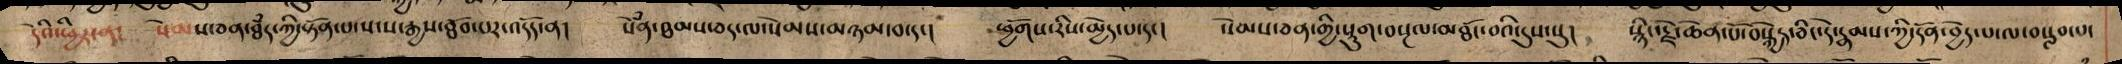དེའི་ཕྱིར་ན༴ སེམས་ཅན་ཐཾད་ཀྱི་སྟོན་པ་སངས་རྒྱས་ཐོབ་པར་འདོད་ན། སེཾན་ཐམས་ཅད་ལ་སེམས་མཉམ་བ་དང། ཕྱོགས་རིས་མྱེད་པ་དང། སེམས་ཅན་གྱི་སྡུག་བསྔལ་མཐོ་བའི་དུས་སུ། སྙིང་རྗེ་ཆེན་པོ་བསྐྱེད་ཅིང་དེ་རྣམས་ཀྱི་དོན་བྱེད་པ་ལ་བསླབ་པ་
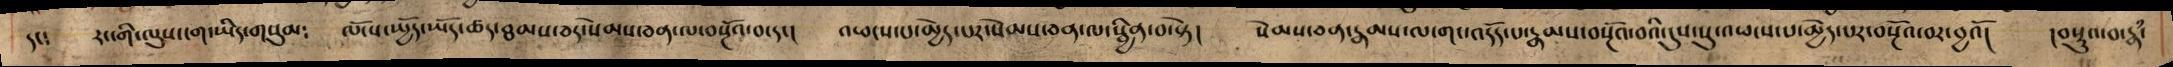དང༴ རང་གི་ལུས་ངག་ཡིད་གསུམ༴ ལོངས་སྤྱོད་ཡོད་ཚད་ཐམས་ཅད་སེམས་ཅན་ལ་བསྔོའ་བ་དང། འཕངས་པ་མྱེད་པར་སེམས་ཅན་ལ་སྦྱིན་བ་སྟེ། སེམས་ཅན་རྣམས་ལ་གང་འདོད་པ་རྣམས་བསྔོའ་བའི་དུས་སུ་འཕངས་པ་མྱེད་པར་བསྔོའ་བར་བྱའོ། །བསྡུའ་བ་རྣཾ་
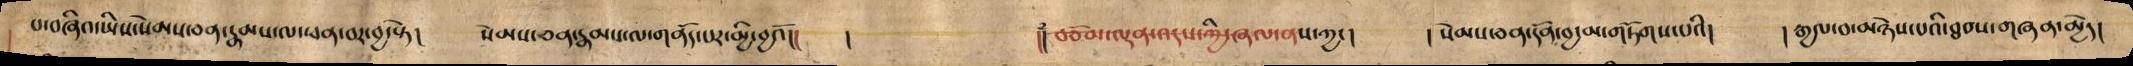པ་བཞིའ་ཡིས་སེམས་ཅན་རྣམས་ལ་ཕན་བར་བྱ་སྟེ། སེམས་ཅན་རྣམས་ལ་གནོད་པར་མྱི་བྱའོ། །། བཅོམ་ལྡན་འདས་ཀྱི་ཞལ་ནས་ཀྱང། །སེམས་ཅན་དོན་བྱ་མ་གཏོགས་པའི། །རྒྱལ་བ་མཉེས་པའི་ཐབས་གཞན་མྱེད།
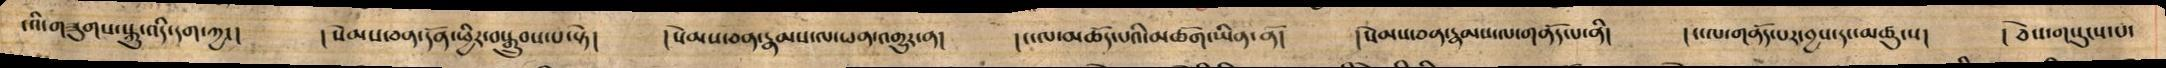ངའི་གཟུགས་སྐུ་འདི་དག་ཀྱང། །སེམས་ཅན་དོན་ཕྱིར་བསྒྲུབས་པ་སྟེ། །སེམས་ཅན་རྣམས་ལ་ཕན་འགྱུར་ན། །ང་ལ་མཆོད་པའི་མཆོག་ཡིན་ནོ། །སེམས་ཅན་རྣམས་ལ་གནོད་པ་ནི། །ང་ལ་གནོད་པར་བྱས་དང་མཚུངས། ། ཅེས་གསུངས་པ་
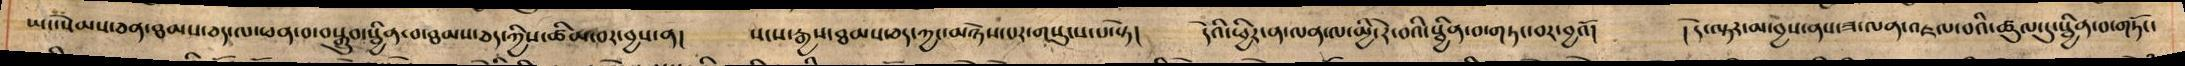ཡང་སེམས་ཅན་ཐམས་ཅད་ལ་ཕན་བ་བསྒྲུབ་སྦྱིན་བ་ཐམས་ཅད་ཀྱིས་ཚིམ་བར་བྱས་ན། སངས་རྒྱས་ཐམས་ཅད་མཉེས་པར་གསུངས་པ་སྟེ། དེའི་ཕྱིར་ན་ལན་ལ་མྱི་རེ་བའི་སྦྱིན་བ་གཏང་བར་བྱའོ། ། དེ་ལྟར་མ་བྱས་ནས་ཟ་ལན་འཇལ་བའི་ཚུལ་དུ་སྦྱིན་བ་གཏོང་
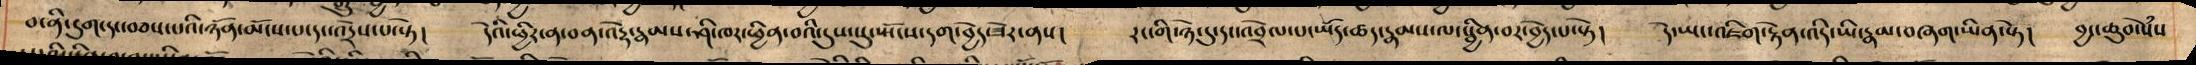བ་ནི་དུག་དང་བཅས་པའི་ཉོན་མོངས་པ་དང་འདྲེས་པ་སྟེ། དེའི་ཕྱིར་ན་བན་འརྡེ་རྣམས་ཤི་ཁར་ཕྱིན་བའི་དུས་སུ་ཡོངས་དག་བྱེད་ཟེར་ནས། རང་གི་ཉེ་དུ་དང་འབྲེལ་པ་ཡོད་ཚད་རྣམས་ལ་སྦྱིན་བར་བྱེད་པ་སྟེ། དེ་ཡང་འཇིག་རྟེན་འདི་ཡི་རྣམ་བཞག་ཡིན་སྟེ། བྱང་ཆུབ་སེཾས
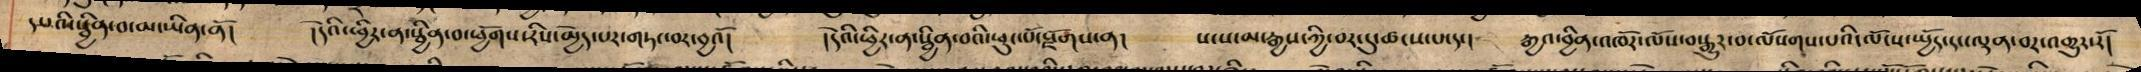དཔའི་སྦྱིན་བ་མ་ཡིན་ནོ། །དེའི་ཕྱིར་ན་སྦྱིན་བ་ཕྱོགས་རིས་མྱེད་པར་གཏང་བར་བྱའོ། །དེའི་ཕྱིར་ན་སྦྱིན་བའི་ཕུང་པོ་སྫོགས་ན། སངས་མ་རྒྱས་ཀྱི་བར་དུ་ཚངས་པ་དང། རྒྱའ་བྱིན་འཁོར་ལོས་བསྒྱུར་བ་ལསོགས་པའི་ལོངས་སྤྱོད་དང་ལྡན་བར་འགྱུར་རོ།
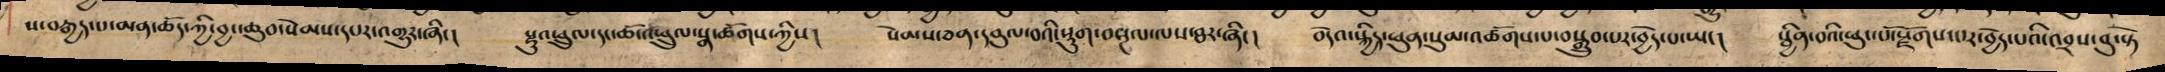ས་བརྒྱད་པ་མན་ཆོད་ཀྱི་བྱང་ཆུབ་སེམས་དཔར་འགྱུར་ཞིང། སྫུ་འཕྲུལ་དང་ཆོ་འཕྲུལ་སྣ་ཚོགས་ཀྱིས། སེམས་ཅན་དབུལ་བའི་སྡུག་བསྔལ་ལས་ཐར་ཞིང། བདེའ་སྐྱིད་ཕུན་སུམ་འཚོགས་པ་བསྒྲུབ་པར་བྱེད་པ་ཡང། སྦྱིན་བའི་ཕུང་པོ་སྫོགས་པར་བྱེད་པའི་འབྲས་བུ་སྟེ
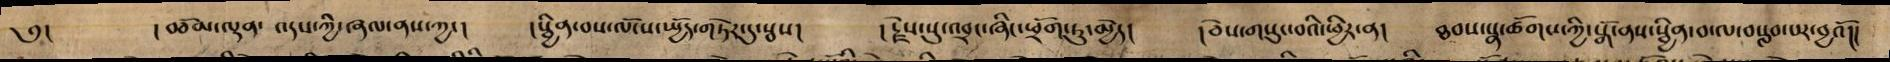༅། །བཅོམ་ལྡན་ འདས་ཀྱི་ཞལ་ནས་ཀྱང། །སྦྱིན་བས་ལོངས་སྤྱོད་གཏེར་དུ་སྦས། །རྗེས་སུ་འབྲང་ཞིང་ཕྲོག་ཏུ་མྱེད། །ཅེས་གསུང་བའི་ཕྱིར་ན། ཐབས་སྣ་ཚོགས་ཀྱི་སྒོ་ནས་སྦྱིན་བ་ལ་བསླབ་པར་བྱའོ།།
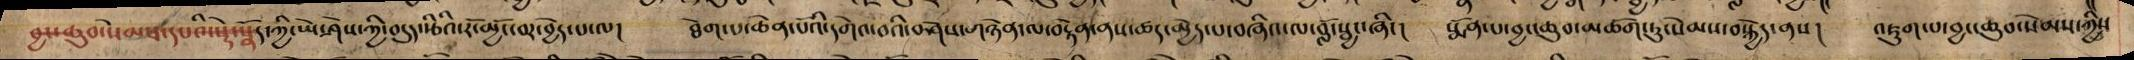བྱང་ཆུབ་སེམས་དཔའི་སྡེ་སྣོད་ཀྱི་ཡེ་ཤེས་ཀྱི་བདུད་རྩིའི་རོ་མྱོང་བར་བྱེད་པ་ལ། ཐེག་པ་ཆེན་པོའི་དགེའ་བའི་བཤེས་གཉེན་ལ་བརྟེན་ནས་ཚད་མྱེད་པ་བཞིའ་ལ་བློ་སྦཡང་ཞིང། སྨོན་པ་བྱང་ཆུབ་མཆོག་ཏུ་སེམས་བསྐྱེད་ནས། འཇུག་པ་བྱང་ཆུབ་སེམས་ཀྱིས
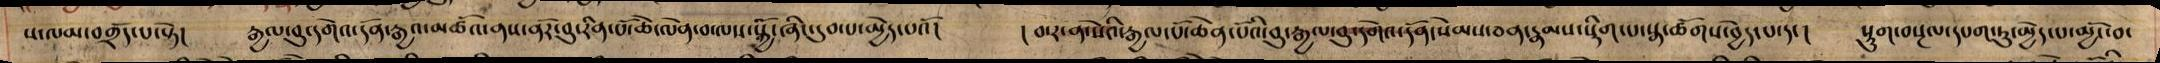ས་ལམ་བགྲོད་པ་སྟེ། རྒྱལ་བུ་དགེའ་དོན་རྒྱའ་མཚོའ་ནས་ནོར་བུ་རིན་པོ་ཆེ་ལེན་བ་ལས་སྐྱོ་ཞཱིང་དུབ་པ་མྱེད་པའོ། ། བ་ར་ན་སེའི་རྒྱལ་པོ་ཆེན་པོའི་བུ་རྒྱལ་བུ་དགེའ་དོན་སེམས་ཅན་རྣམས་སྡིག་པ་སྣ་ཚོགས་བྱེད་པ་དང། སྡུག་བསྔལ་དཔག་ཏུ་མྱེད་པ་མྱོང་བ་
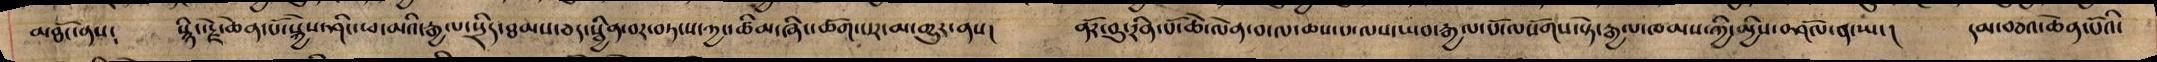མཐོང་ནས༴ སྙིང་རྗེ་ཆེན་པོ་སྐྱེས་ཤིང་ཕ་མའི་རྒྱལ་སྲིད་ཐམས་ཅད་སྦྱིན་བར་བཏངས་ཀྱང་ཚིམ་ཞིང་ཚོག་པར་མ་གྱུར་ནས། ནོར་བུ་རིན་པོ་ཆེ་ལེན་བ་ལ་ཆས་པ་ལས་ཡབ་རྒྱལ་པོ་ལསོགས་སྟེ་རྒྱལ་ཁམས་ཀྱི་མྱིས་བཤོལ་ན་ཡང། དམ་བཅའ་ཆེན་པོའི་
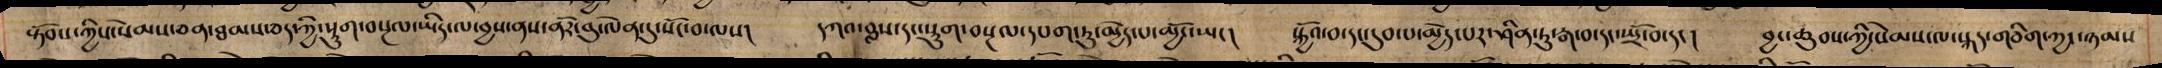སྟོབས་ཀྱིས་སེམས་ཅན་ཐམས་ཅད་ཀྱི་སྡུག་བསྔལ་ཡིད་ལ་བྱས་ནས་ནོར་བུ་ལེན་དུ་སོང་བ་ལས། དཀའ་བླས་དང་སྡག་བསྔལ་དཔག་ཏུ་མྱེད་པ་མྱོང་ཡང། སྐྱོའ་བ་དང་དུབ་པ་མྱེད་པར་ཤིན་ཏུ་རྒ་བ་དང་སྤྲོ་བ་དང། བྱང་ཆུབ་ཀྱི་སེམས་ལ་སྐད་གཅིག་ཀྱང་ཉམས
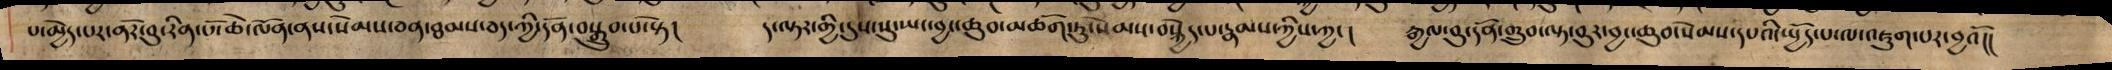པ་མྱེད་པར་ནོར་བུ་རིན་པོ་ཆེན་ལོན་ནས་སེམས་ཅན་ཐམས་ཅད་ཀྱི་དོན་བསྒྲུབ་པ་སྟེ། ད་ལྟར་གྱི་དུས་སུ་ཡང་བྱང་ཆུབ་ཏུ་སེམས་བསྐྱེད་པ་རྣམས་ཀྱིས་ཀྱང། རྒྱལ་བུ་དོན་གྲུབ་ལྟ་བུར་བྱང་ཆུབ་སེམས་དཔའི་སྤྱོད་པ་ལ་འཇུག་པར་བྱའོ།།
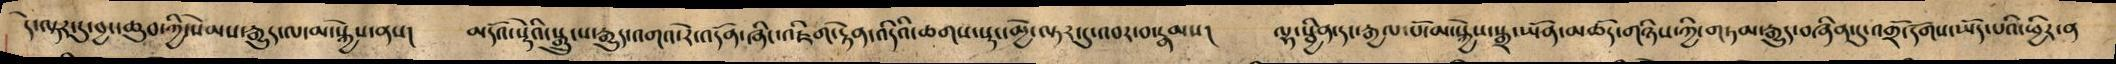དེ་ལྟར་དུ་བྱང་ཆུབ་ཀྱི་སེམས་རྒྱུད་ལ་མ་སྐྱེས་ནས། མདོའ་སྡེའི་སྒྲུ་ས་རྒྱུད་འགའ་རེ་འདོན་ཞིང་འཇིག་རྟེན་འདིའི་ཆགས་སྡང་མྱེ་ལྟར་དུ་འབར་བ་རྣམས། ལྷ་སྦྱིན་དང་རྒྱལ་པོ་མ་སྐྱེས་སྒྲ་ཡོན་མཆོད་གཉིས་ཀྱི་གཏམ་རྒྱུད་བཞིན་དུ་འགྲོ་དགོས་ཡོད་པའི་ཕྱིར་ན
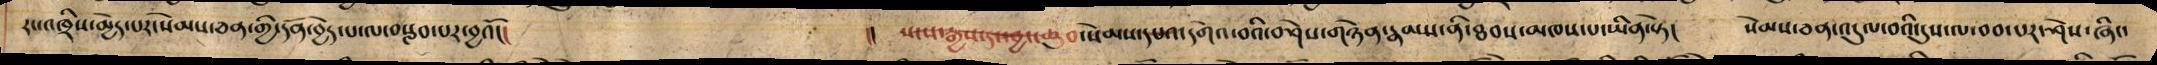རང་འཁྲིས་མྱེད་པར་སེམས་ཅན་གྱི་དོན་བྱེད་པ་ལ་བསླབ་པར་བྱའོ།། །། སངས་རྒྱས་དང་བྱང་ཆུབ་སེམས་དཔའ་དགེའ་བའི་བཤེས་གཉེན་རྣམས་ནི་ཐབས་མཁས་པ་ཡིན་ཏེ། སེམས་ཅན་འདུལ་བའི་དུས་ལ་བབ་པར་ཤེས་ཞིང་
